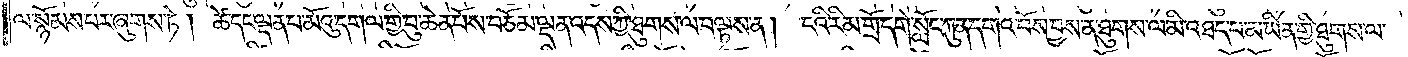ལ་སྙོམས་པར་ཞུགས་ཏེ། ཚེ་དང་ལྡན་པ་མོའུ་དགལ་གྱི་བུ་ཆེན་པོས་བཅོམ་ལྡན་འདས་ཀྱི་ཐུགས་ལ་བལྟས་ན། ངའི་རིམ་གྲོ་དགེ་སློང་ཀུན་དགའ་བོས་བྱས་ན་ཐུགས་ལ་མི་འཐད་པ་མ་ཡིན་གྱི་ཐུགས་ལ་
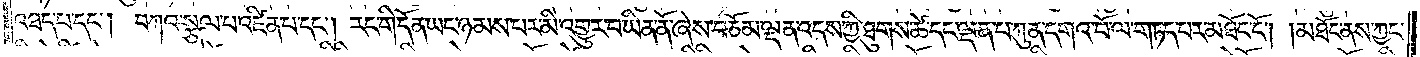འཐད་པ་དང༌། བཀའ་སྩལ་པ་འཛིན་པ་དང༌། རང་གི་དོན་ཡང་ཉམས་པར་མི་འགྱུར་པ་ཡིན་ནོ་ཞེས་བཅོམ་ལྡན་འདས་ཀྱི་ཐུགས་ཚེ་དང་ལྡན་པ་ཀུན་དགའ་བོ་ལ་གཏད་པར་མཐོང་ངོ༌། །མཐོང་ནས་ཀྱང་
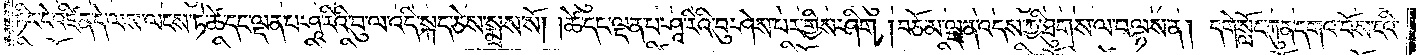ཏིང་ངེ་འཛིན་དེ་ལས་ལངས་ཏེ་ཚེ་དང་ལྡན་པ་ཤཱ་རིའི་བུ་ལ་འདི་སྐད་ཅེས་སྨྲས་སོ། །ཚེ་དང་ལྡན་པ་ཤཱ་རིའི་བུ་ཤེས་པར་གྱིས་ཤིག །བཅོམ་ལྡན་འདས་ཀྱི་ཐུགས་ལ་བལྟས་ན། དགེ་སློང་ཀུན་དགའ་བོས་ངའི་
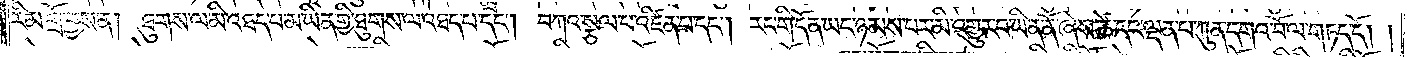རིམ་གྲོ་བྱས་ན། ཐུགས་ལ་མི་འཐད་པ་མ་ཡིན་གྱི་ཐུགས་ལ་འཐད་པ་དང༌། བཀའ་སྩལ་པ་འཛིན་པ་དང༌། རང་གི་དོན་ཡང་ཉམས་པར་མི་འགྱུར་བ་ཡིན་ནོ་ཞེས་ཚེ་དང་ལྡན་པ་ཀུན་དགའ་བོ་ལ་གཏད་དོ༎
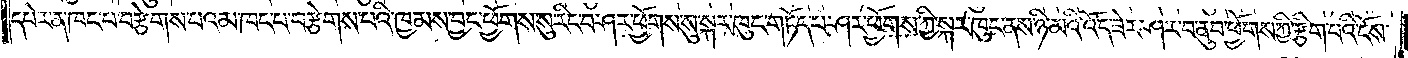དཔེར་ན་ཁང་པ་བརྩེགས་པའམ་ཁང་པ་བརྩེགས་པའི་ཁྱམས་བྱང་ཕྱོགས་སུ་རིང་བ་ཤར་ཕྱོགས་སུ་སྐར་ཁུང་གཏོད་པ་ཤར་ཕྱོགས་ཀྱི་སྐར་ཁུང་ནས་ཉི་མའི་འོད་ཟེར་ཤར་བ་ནུབ་ཕྱོགས་ཀྱི་རྩིག་པའི་ངོས་
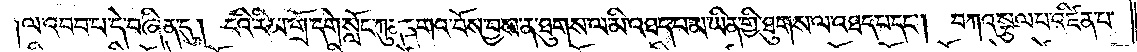ལ་འབབ་པ་དེ་བཞིན་དུ། ངའི་རིམ་གྲོ་དགེ་སློང་ཀུན་དགའ་བོས་བྱས་ན་ཐུགས་ལ་མི་འཐད་པ་མ་ཡིན་གྱི་ཐུགས་ལ་འཐད་པ་དང༌། བཀའ་སྩལ་པ་འཛིན་པ་
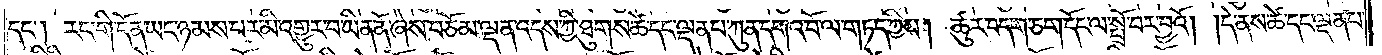དང༌། རང་གི་དོན་ཡང་ཉམས་པར་མི་འགྱུར་བ་ཡིན་ནོ་ཞེས་བཅོམ་ལྡན་འདས་ཀྱི་ཐུགས་ཚེ་དང་ལྡན་པ་ཀུན་དགའ་བོ་ལ་གཏད་ཀྱིས། ཚུར་བདག་ཅག་དོང་ལ་སྤྲོ་བར་བྱའོ། །དེ་ནས་ཚེ་དང་ལྡན་པ་
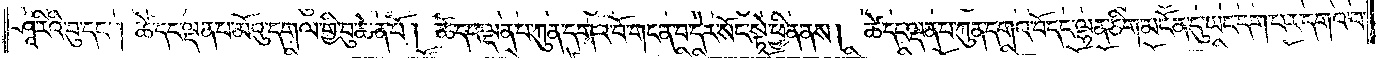ཤཱ་རིའི་བུ་དང༌། ཚེ་དང་ལྡན་པ་མོའུ་དགལ་གྱི་བུ་ཆེན་པོ། ཚེ་དང་ལྡན་པ་ཀུན་དགའ་བོ་གང་ན་བ་དེར་སོང་སྟེ་ཕྱིན་ནས། ཚེ་དང་ལྡན་པ་ཀུན་དགའ་བོ་དང་ལྷན་ཅིག་མངོན་དུ་ཡང་དག་པར་དགའ་བ་
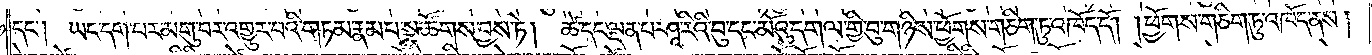དང༌། ཡང་དག་པར་མགུ་བར་འགྱུར་བའི་གཏམ་རྣམ་པ་སྣ་ཚོགས་བྱས་ཏེ། ཚེ་དང་ལྡན་པ་ཤཱ་རིའི་བུ་དང་མོའུ་དགལ་གྱི་བུ་གཉིས་ཕྱོགས་གཅིག་ཏུ་འཁོད་དོ། །ཕྱོགས་གཅིག་ཏུ་འཁོད་ནས།
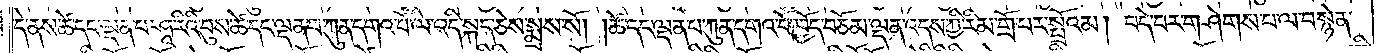དེ་ནས་ཚེ་དང་ལྡན་པ་ཤཱ་རིའི་བུས་ཚེ་དང་ལྡན་པ་ཀུན་དགའ་བོ་ལ་འདི་སྐད་ཅེས་སྨྲས་སོ། །ཚེ་དང་ལྡན་པ་ཀུན་དགའ་བོ་ཁྱོད་བཅོམ་ལྡན་འདས་ཀྱི་རིམ་གྲོ་པར་སྤྲོའམ། བདེ་བར་གཤེགས་པ་ལ་བསྙེན་
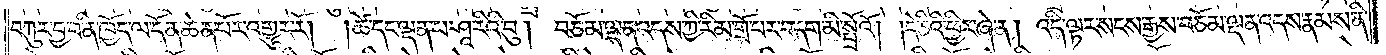བཀུར་བྱ་བ་ནི་ཁྱོད་ལ་དོན་ཆེན་པོར་འགྱུར་རོ། །ཚེ་དང་ལྡན་པ་ཤཱ་རིའི་བུ། བཅོམ་ལྡན་འདས་ཀྱི་རིམ་གྲོ་པར་བདག་མི་སྤྲོའོ། །དེ་ཅིའི་ཕྱིར་ཞེ་ན། འདི་ལྟར་སངས་རྒྱས་བཅོམ་ལྡན་འདས་རྣམས་ནི་
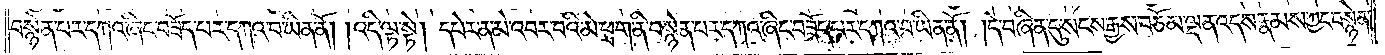བསྙེན་པར་དཀའ་ཞིང་བཟོད་པར་དཀའ་བ་ཡིན་ནོ། །འདི་ལྟ་སྟེ། དཔེར་ན་མེ་འབར་བའི་མེ་ཕྲག་ནི་བསྙེན་པར་དཀའ་ཞིང་བཟོད་པར་དཀའ་བ་ཡིན་ནོ། །དེ་བཞིན་དུ་སངས་རྒྱས་བཅོམ་ལྡན་འདས་རྣམས་ཀྱང་བསྙེན་
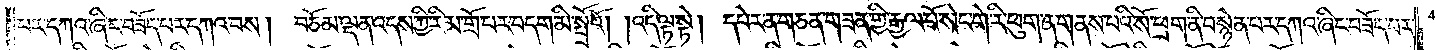པར་དཀའ་ཞིང་བཟོད་པར་དཀའ་བས། བཅོམ་ལྡན་འདས་ཀྱི་རིམ་གྲོ་པར་བདག་མི་སྤྲོའོ། །འདི་ལྟ་སྟེ། དཔེར་ན་གཅན་གཟན་གྱི་རྒྱལ་པོ་སེང་གེ་རི་ཕུག་ན་གནས་པའི་སོ་ཕྲག་ནི་བསྙེན་པར་དཀའ་ཞིང་བཟོད་པར་
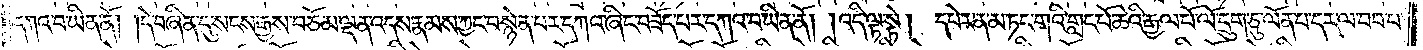དཀའ་བ་ཡིན་ནོ། །དེ་བཞིན་དུ་སངས་རྒྱས་བཅོམ་ལྡན་འདས་རྣམས་ཀྱང་བསྙེན་པར་དཀའ་ཞིང་བཟོད་པར་དཀའ་བ་ཡིན་ནོ། །འདི་ལྟ་སྟེ། དཔེར་ན་མ་ཏང་གའི་གླང་པོ་ཆེའི་རྒྱལ་པོ་ལོ་དྲུག་ཅུ་ལོན་པ་དར་ལ་བབ་པ་
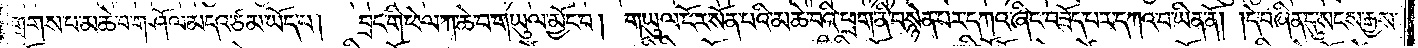གྲགས་པ་མཆེ་བ་གཤོལ་མདའ་ཙམ་ཡོད་པ། བྲང་གི་ཕེལ་ཀ་ཆེ་བ་གཡུལ་མྱོང་བ། གཡུལ་ངོར་སོན་པའི་མཆེ་བའི་ཕྲག་ནི་བསྙེན་པར་དཀའ་ཞིང་བཟོད་པར་དཀའ་བ་ཡིན་ནོ། །དེ་བཞིན་དུ་སངས་རྒྱས་
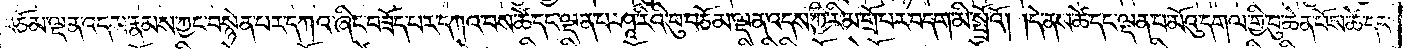བཅོམ་ལྡན་འདས་རྣམས་ཀྱང་བསྙེན་པར་དཀའ་ཞིང་བཟོད་པར་དཀའ་བས་ཚེ་དང་ལྡན་པ་ཤཱ་རིའི་བུ་བཅོམ་ལྡན་འདས་ཀྱི་རིམ་གྲོ་པར་བདག་མི་སྤྲོའོ། །དེ་ནས་ཚེ་དང་ལྡན་པ་མོའུ་དགལ་གྱི་བུ་ཆེན་པོས་ཚེ་དང་
